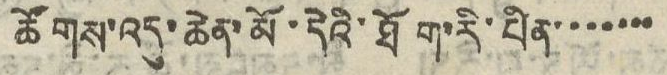ཚོགས་འདུ་ཆེན་མོ་དེའི་ཐོག་རི་པིན་་་་་་་
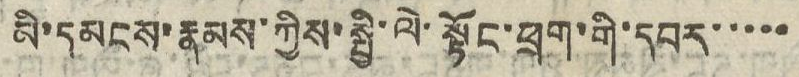མི་དམངས་རྣམས་ཀྱིས་སྤྱི་ལེ་སྟོང་ཕྲག་གི་དབར་་་་་
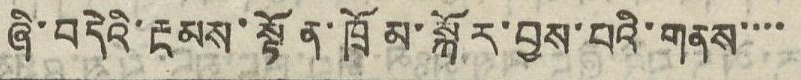ཞི་བདེའི་རྔམས་སྟོན་ཁྲོམ་སྐོར་བྱས་པའི་གནས་་་་
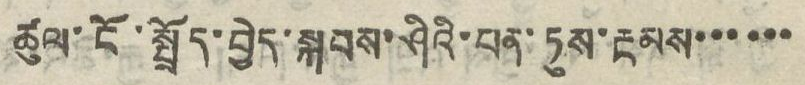ཚུལ་ངོ་སྤྲོད་བྱེད་སྐབས་ཤིའི་པན་ཏུས་རྔམས་་་་་་
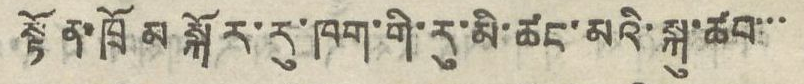སྟོན་ཁྲོམ སྐོར་རུ་ཁག་གི་རུ་མི་ཚང་མའི་སྐུ་ཚབ་་་
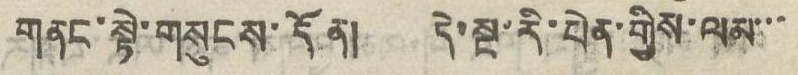གནང་སྟེ་གསུངས་དོན། དེ་སྔ་རི་པེན་གྱིས་ལམ་་་
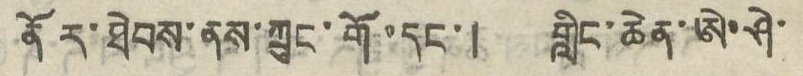ནོར་ཐེབས་ནས་ཀྲུང་གོ་དང་། གླིང་ཆེན་ཨེ་ཤེ་
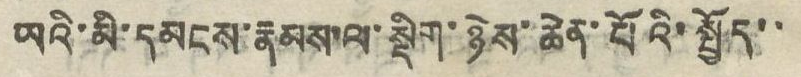ཡའི་མི་དམངས་རྣམས་ལ་སྡིག་ཉེས་ཆེན་པོའི་སྤྱོད་་
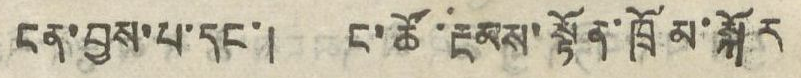ངན་བྱས་པ་དང་། ང་ཚོ་རྔམས་སྟོན་ཁྲོམ་སྐོར
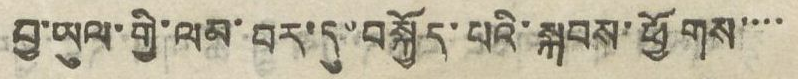བྱ་ཡུལ་གྱི་ལམ་བར་དུ་བསྐྱོད་པའི་སྐབས་ཕྱོགས་་་་
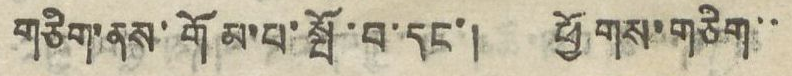གཅིག་ནས་གོམ་པ་སྤོ་བ་དང་། ཕྱོགས་གཅིག་་
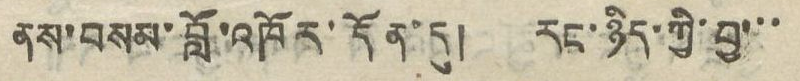ནས་བསམ་བློ་འཁོར་དོན་དུ། རང་ཉིད་ཀྱི་བྱ་་་
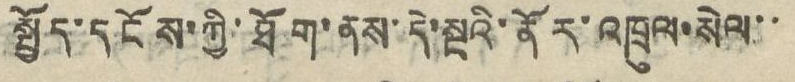སྤྱོད་དངོས་ཀྱི་ཐོག་ནས་དེ་སྔའི་ནོར་འཁྲུལ་སེལ་་
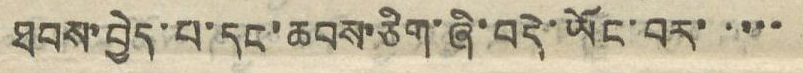ཐབས་བྱེད་པ་དང་ཆབས་ཅིག་ཞི་བདེ་ཡོང་བར་་་་་
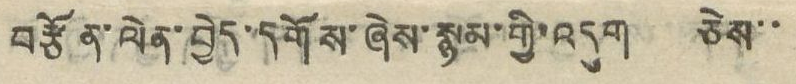བརྩོན་ལེན་བྱེད་དགོས་ཞེས་སྙམ་གྱི་འདུག ཅེས་་
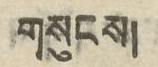གསུངས།
